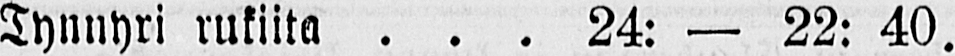Tynnyri rukiita 24: — 22: 40.
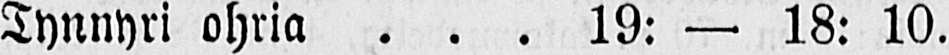Tynnyri ohria 19: — 18: 10.
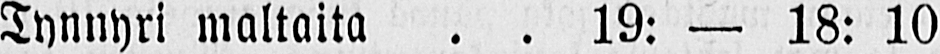Tynnyri maltaita 19: — 18: 10
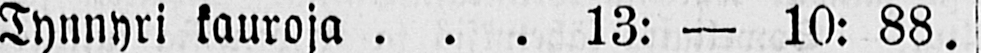Tynnyri kauroja 13: — 10: 88.
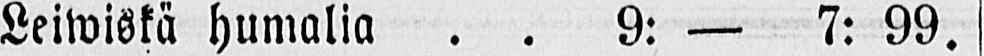Leiwiskä humalia 9: — 7: 99.
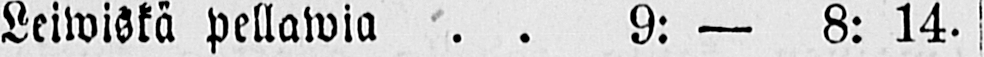Leiwistä pellawia 9: — 8: 14.
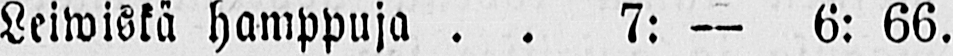Leiwiskä hamppuja 7: — 6: 66.
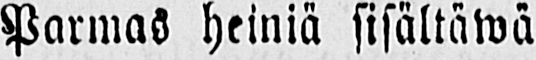Parmas heiniä sisältäwä
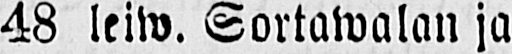48 leiw. Sortawalan ja
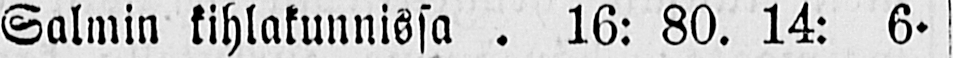Salmin kihlakunnissa 16: 80. 14: 6.
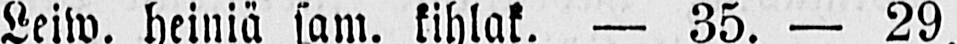Leiw, heiniä sam. kihlak. — 35. — 29.
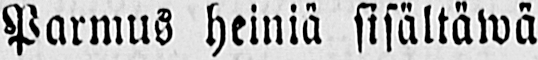Parmus heiniä sisältäwä
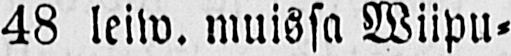48 leiw. muissa Wiipu-
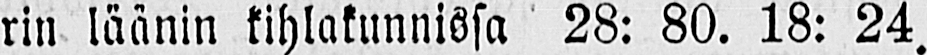rin läänin kihlatunnissa 28: 80. 18: 24.
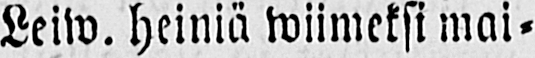Leiw. heiniä wiimeksi mai-
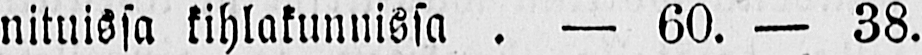nituissa kihlakunnissa . — 60. — 38.
